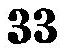33
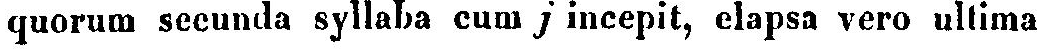quorum secunda syllaba cum j incepit, elapsa vero ultima
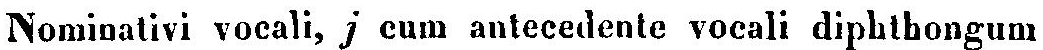Nominativi vocali, j cum antecedente vocali diphthongum
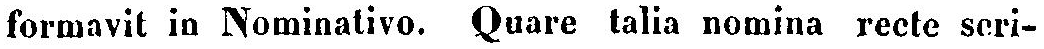formavit in Nominativo. Quare talia nomina recte seri-
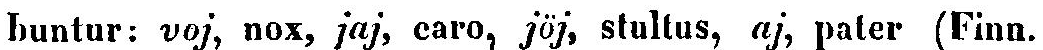buntur: voj, nox, jaj, caro, jöj, stultus, aj, pater (Finn.
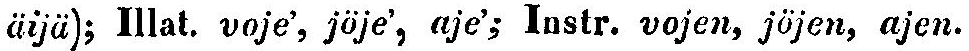äijä); Illat. voje', jöje', aje'; Instr. vojen, jöjen, ajen.
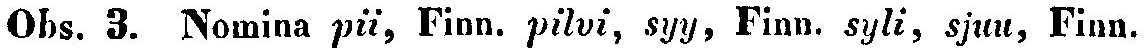Obs. 3. Nomina pii, Finn. pilvi, syy, Finn. syli, sjuu, Finn.
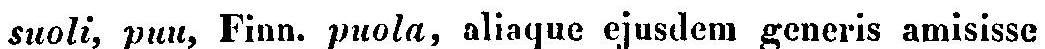suoli, puu, Finn. puola, aliaque ejusdem generis amisisse
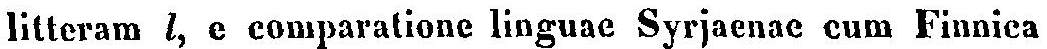litteram l, e comparatione linguae Syrjaenae cum Finnica
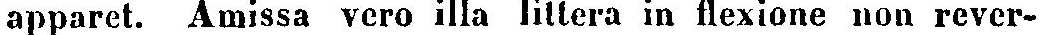apparet. Amissa vero illa littera in flexione non rever-
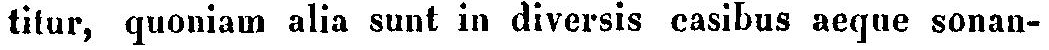titur, quoniam alia sunt in diversis casibus aeque sonan-
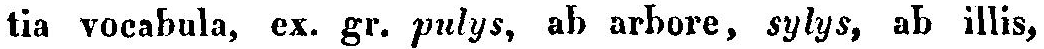tia vocabula, ex. gr. pulys, ab arbore, sylys, ab illis,
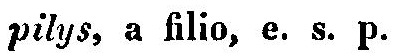pilys, a filio, e. s. p.
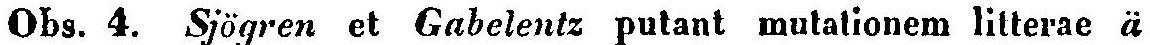Obs. 4. Sjögren et Gabelentz putant mutationem litterae ä
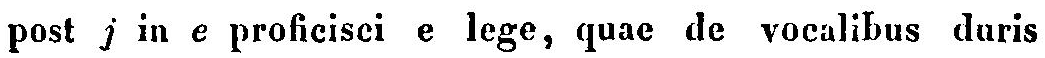post j in e proficisci e lege, quae de vocalibus duris
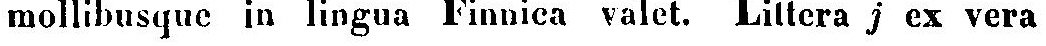mollibusque in lingua Finnica valet. Littera j ex vera
